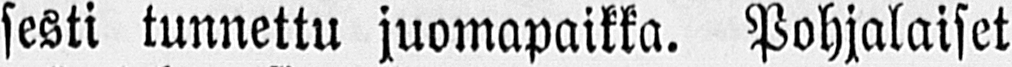sesti tunnettu juomapaikka. Pohjalaiset
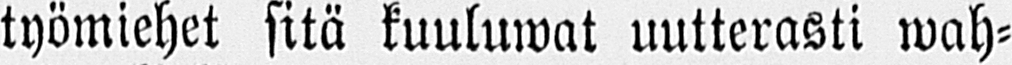työmiehet sitä kuuluwat uutterasti wah-
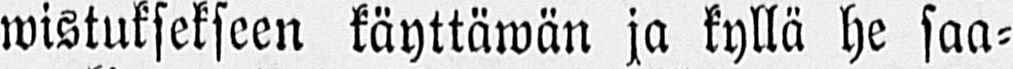wistuksekseen käyttäwän ja kyllä he saa-
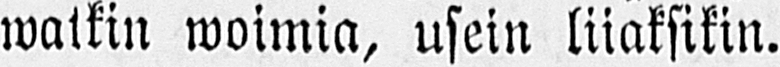watkin woimia, usein liiaksikin.
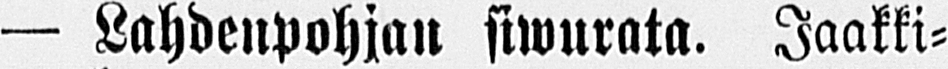— Lahdenpohjan siwurata. Jaakki-
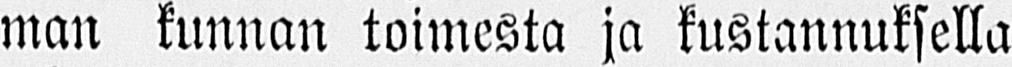man kunnan toimesta ja kustannuksella
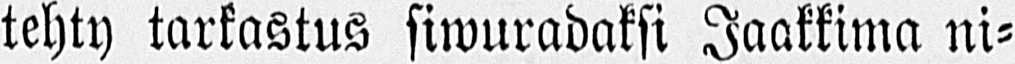tehty tarkastus siwuradaksi Jaakkima ni-
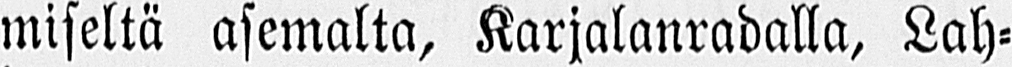miseltä asemalta, Karjalanradalla, Lah-
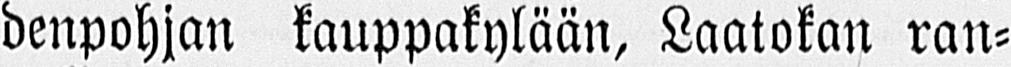denpohjan kauppakylään, Laatokan ran-
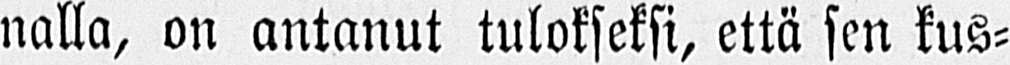nalla, on antanut tulokseksi, että sen kus-
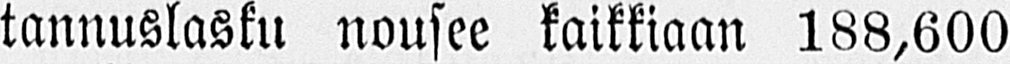tannuslasku nousee kaikkiaan 188,600
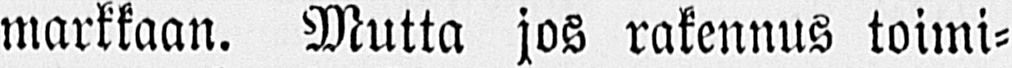markkaan. Mutta jos rakennus toimi-
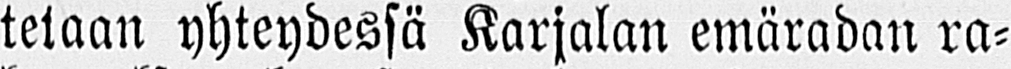tetaan yhteydessä Karjalan emäradan ra-
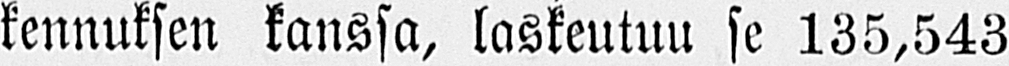kennuksen kanssa, laskeutuu se 135,543
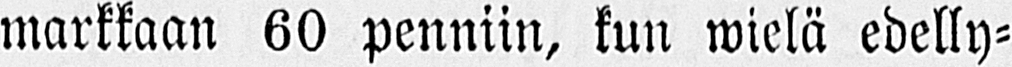markkaan 60 penniin, kun wielä edelly-
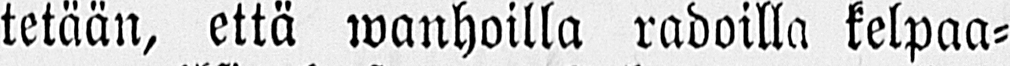tetään, että wanhoilla radoilla kelpaa-
